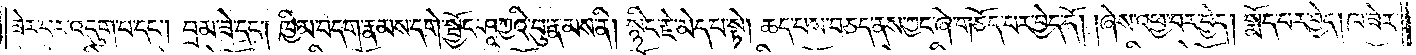ཟེར་བར་འདུག་པ་དང༌། བྲམ་ཟེ་དང༌། ཁྱིམ་བདག་རྣམས་དགེ་སྦྱོང་ཤཱཀྱའི་བུ་རྣམས་ནི། སྙིང་རྗེ་མེད་པ་སྟེ། ཆད་པས་བཅད་ནས་ཀྱང་ཞེ་གཅོད་པར་བྱེད་དོ། །ཞེས་འཕྱ་བར་བྱེད། སྨོད་པར་བྱེད། ཁ་ཟེར་
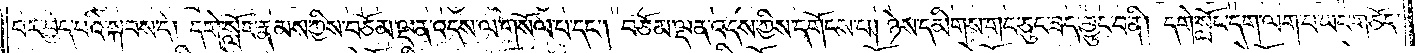བར་བྱེད་པའི་སྐབས་དེ། དགེ་སློང་རྣམས་ཀྱིས་བཅོམ་ལྡན་འདས་ལ་གསོལ་པ་དང༌། བཅོམ་ལྡན་འདས་ཀྱིས་དགོངས་པ། ཉེས་དམིགས་གང་ཅུང་ཟད་བྱུང་བ་ནི། དགེ་སློང་དག་ལག་པ་ཡང་གཅོད་
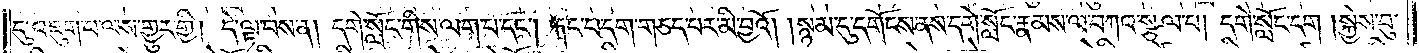དུ་འཇུག་པ་ལས་གྱུར་གྱི། དེ་ལྟ་བས་ན། དགེ་སློང་གིས་ལག་པ་དང༌། རྐང་པ་དག་གཅད་པར་མི་བྱའོ། །སྙམ་དུ་དགོངས་ནས་དགེ་སློང་རྣམས་ལ་བཀའ་སྩལ་པ། དགེ་སློང་དག །སྐྱེས་བུ་
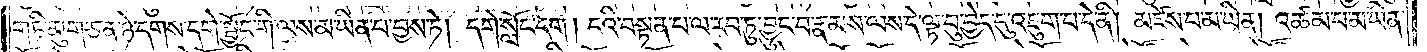གཏི་མུག་ཅན་ཉེ་དགས་དགེ་སྦྱོང་གི་ལས་མ་ཡིན་པ་བྱས་ཏེ། དགེ་སློང་དག། ངའི་བསྟན་པ་ལ་རབ་ཏུ་བྱུང་བ་རྣམས་ལས་དེ་ལྟ་བུ་བྱེད་དུ་འཇུག་པ་དེ་ནི། མཛེས་པ་མ་ཡིན། འཚམ་པ་མ་ཡིན་
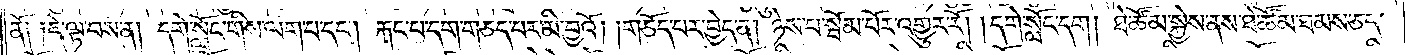ནོ༑ ༑དེ་ལྟ་བས་ན། དགེ་སློང་གིས་ལག་པ་དང༌། རྐང་པ་དག་གཅད་པར་མི་བྱའོ། །གཅོད་པར་བྱེད་ན། ཉེས་པ་སྦོམ་པོར་འགྱུར་རོ། །དགེ་སློང་དག། ཐེ་ཚོམ་སྐྱེས་ནས་ཐེ་ཚོམ་ཐམས་ཅད་
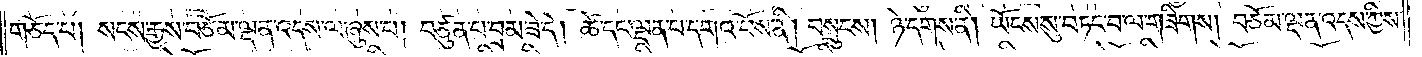གཅོད་པ། སངས་རྒྱས་བཅོམ་ལྡན་འདས་ལ་ཞུས་པ། བཙུན་པ་བྲམ་ཟེ་དེ། ཚེ་དང་ལྡན་པ་དགའ་བོས་ནི། བསྲུངས། ཉེ་དགས་ནི། ཡོངས་སུ་བཏང་བ་ལ་གཟིགས། བཅོམ་ལྡན་འདས་ཀྱིས་
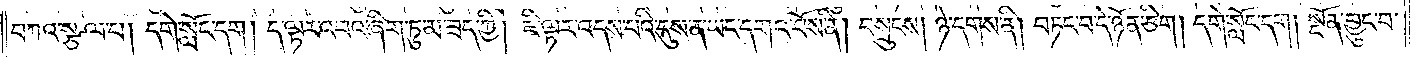བཀའ་སྩལ་པ། དགེ་སློང་དག། ད་ལྟར་འབའ་ཞིག་ཏུ་མ་ཟད་ཀྱི། ཇི་ལྟར་འདས་པའི་དུས་ན་ཡང་དགའ་བོས་ནི། བསྲུངས། ཉེ་དགས་ནི། བཏང་བ་དེ་ཉོན་ཅིག། དགེ་སློང་དག། སྔོན་བྱུང་བ་
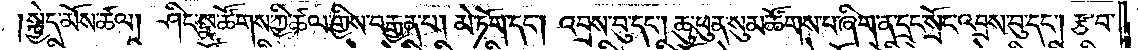སྐྱེད་མོས་ཚལ། ཤིང་སྣ་ཚོགས་ཀྱི་ཚལ་གྱིས་བརྒྱན་པ། མེ་ཏོག་དང༌། འབྲས་བུ་དང༌། ཆུ་ཕུན་སུམ་ཚོགས་པ་ཞིག་ན་དྲང་སྲོང་འབྲས་བུ་དང༌། རྩ་བ་
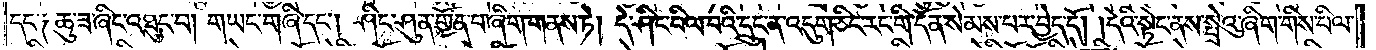དང་༑ ཆུ་ཟ་ཞིང་འཐུང་བ། གཡང་གཞི་དང༌། ཤིང་ཤུན་གྱོན་པ་ཞིག་གནས་ཏེ། དེ་ཤིང་བིལ་བའི་དྲུང་ན་འདུག་ཅིང་རང་གི་དོན་སེམས་པར་བྱེད་དོ། །དེའི་སྟེང་ནས་སྤྲེའུ་ཞིག་གིས་པིལ་
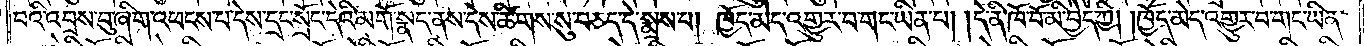བའི་འབྲས་བུ་ཞིག་འཕངས་པ་དེས་དྲང་སྲོང་དེའི་མགོ་སྣད་ནས་དེས་ཚིགས་སུ་བཅད་དེ་སྨྲས་པ། ཁྱོད་མེད་འགྱུར་བ་གང་ཡིན་པ། །དེ་ནི་ཁོ་བོ་མི་བྱེད་ཀྱི། །ཁྱོད་མེད་འགྱུར་བ་གང་ཡིན་
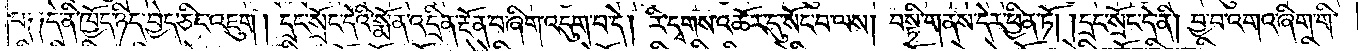པ༑ ༑དེ་ནི་ཁྱོད་ཉིད་བྱེད་ཅིང་འཇུག། དྲང་སྲོང་དེའི་སྨོན་འདྲིན་རྔོན་པ་ཞིག་འདུག་པ་དེ། རི་དྭགས་འཆོར་དུ་སོང་བ་ལས། བསྟི་གནས་དེར་ཕྱིན་ཏོ། །དྲང་སྲོང་དེ་ནི། བྱ་བ་འགའ་ཞིག་གི་
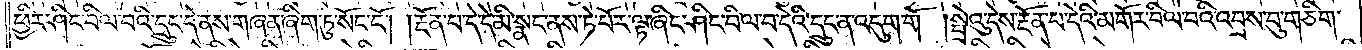ཕྱིར་ཤིང་བིལ་བའི་དྲུང་དེ་ནས་གཞན་ཞིག་ཏུ་སོང་ངོ༌། །རྔོན་པ་དེ་དེ་མི་སྣང་ནས་ཏེ་པོར་ལྟ་ཞིང་ཤིང་བིལ་བ་དེའི་དྲུང་ན་འདུག་གོ །སྤྲེའུ་དེས་རྔོན་པ་དེའི་མགོར་བིལ་བའི་འབྲས་བུ་གཅིག་
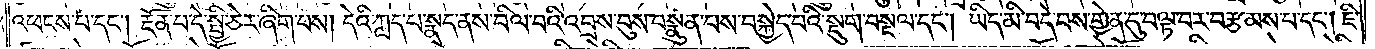འཕངས་པ་དང༌། རྔོན་པ་དེ་སྤྱི་ཅེར་ཞིག་པས། དེའི་ཀླད་པ་སྣད་ནས་བིལ་བའི་འབྲས་བུས་བསྣུན་པས་བསྐྱེད་པའི་སྡུག་བསྔལ་དང༌། ཡིད་མི་བདེ་བས་གྱེན་དུ་བལྟ་བར་བརྩམས་པ་དང༌། ཇི་
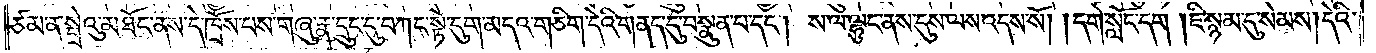ཙམ་ན་སྤྲེའུ་མཐོང་ནས་དེ་ཁྲོས་པས་གཞུ་རྣ་དྲུང་དུ་བཀང་སྟེ་དུག་མདའ་གཅིག་དེའི་གནད་དུ་བསྣུན་པ་དང༌། ས་ལ་ལྷུང་ནས་དུས་ལས་འདས་སོ། །དགེ་སློང་དག །ཇི་སྙམ་དུ་སེམས། དེའི་
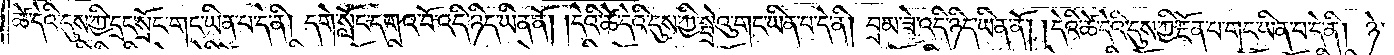ཚེ་དེའི་དུས་ཀྱི་དྲང་སྲོང་གང་ཡིན་པ་དེ་ནི། དགེ་སློང་དགའ་བོ་འདི་ཉིད་ཡིན་ནོ། །དེའི་ཚེ་དེའི་དུས་ཀྱི་སྤྲེའུ་གང་ཡིན་པ་དེ་ནི། བྲམ་ཟེ་འདི་ཉིད་ཡིན་ནོ། །དེའི་ཚེ་དེའི་དུས་ཀྱི་རྔོན་པ་གང་ཡིན་པ་དེ་ནི། ཉེ་
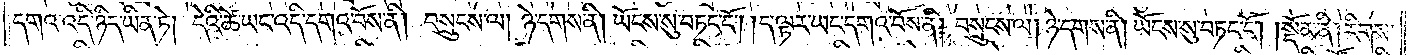དགའ་འདི་ཉིད་ཡིན་ཏེ། དེའི་ཚེ་ཡང་འདི་དགའ་བོས་ནི། བསྲུངས་ལ། ཉེ་དགས་ནི། ཡོངས་སུ་བཏང་ངོ༌། །ད་ལྟར་ཡང་དགའ་བོས་ནི། བསྲུངས་ལ། ཉེ་དགས་ནི། ཡོངས་སུ་བཏང་ངོ༌།    །སྡོམ་ནི། རིགས་
